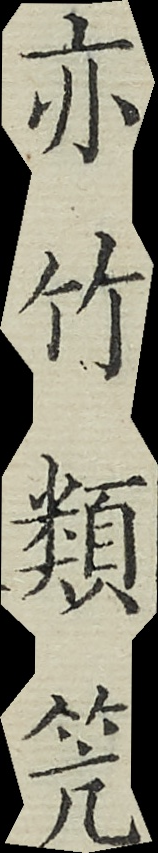亦竹類笐
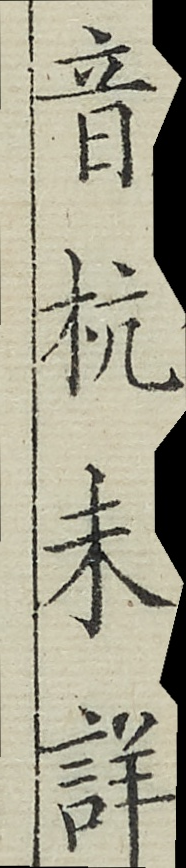音杭未詳
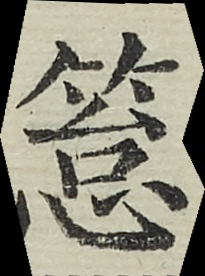䈚
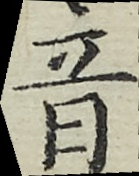音
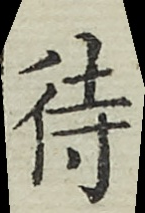待
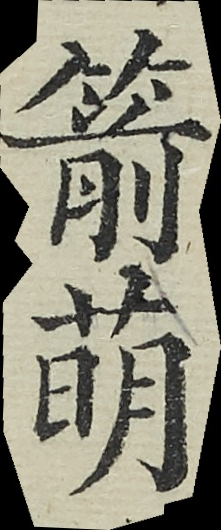箭萌
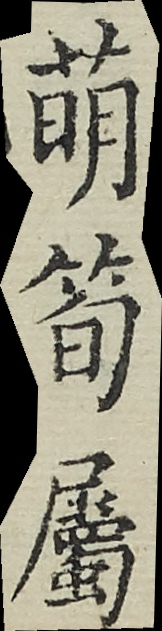萌筍屬
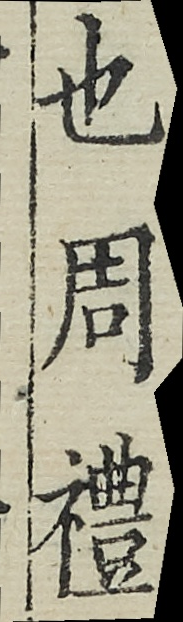也周禮
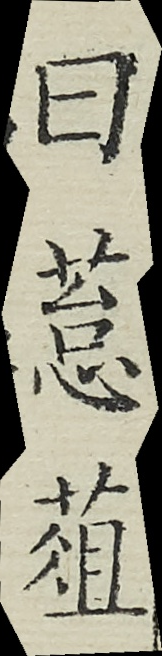曰䈚葅
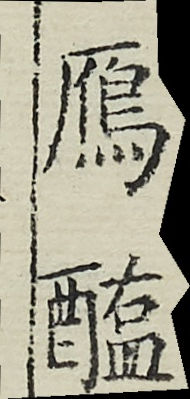雁醢
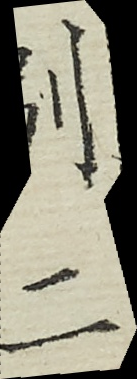別二
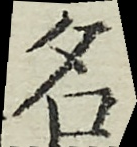名
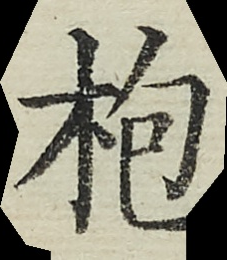枹
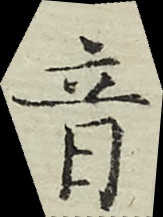音
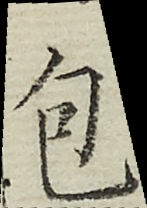包
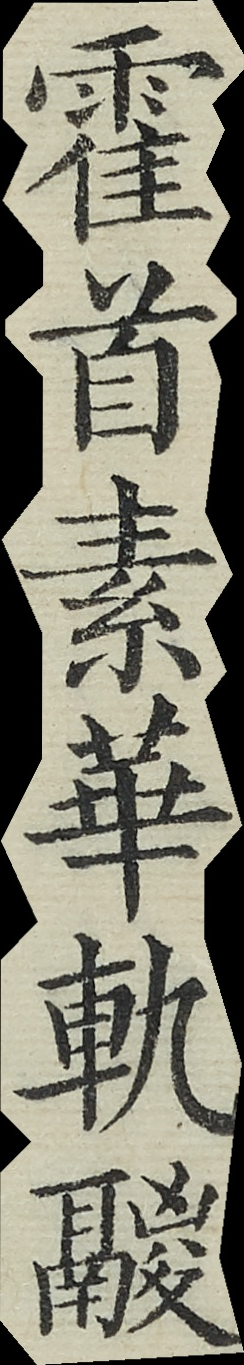霍首素華軌鬷
